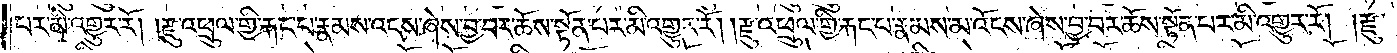པར་མི་འགྱུར་རོ། །རྫུ་འཕྲུལ་གྱི་རྐང་པ་རྣམས་འདས་ཞེས་བྱ་བར་ཆོས་སྟོན་པར་མི་འགྱུར་རོ། །རྫུ་འཕྲུལ་གྱི་རྐང་པ་རྣམས་མ་འོངས་ཞེས་བྱ་བར་ཆོས་སྟོན་པར་མི་འགྱུར་རོ། །རྫུ་
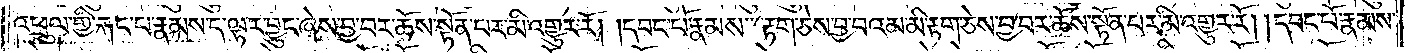འཕྲུལ་གྱི་རྐང་པ་རྣམས་ད་ལྟར་བྱུང་ཞེས་བྱ་བར་ཆོས་སྟོན་པར་མི་འགྱུར་རོ། །དབང་པོ་རྣམས་རྟག་ཅེས་བྱ་བའམ་མི་རྟག་ཅེས་བྱ་བར་ཆོས་སྟོན་པར་མི་འགྱུར་རོ། །དབང་པོ་རྣམས་
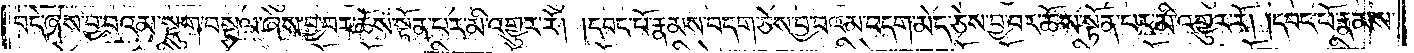བདེ་ཞེས་བྱ་བའམ་སྡུག་བསྔལ་ཞེས་བྱ་བར་ཆོས་སྟོན་པར་མི་འགྱུར་རོ། །དབང་པོ་རྣམས་བདག་ཅེས་བྱ་བའམ་བདག་མེད་ཅེས་བྱ་བར་ཆོས་སྟོན་པར་མི་འགྱུར་རོ། །དབང་པོ་རྣམས་
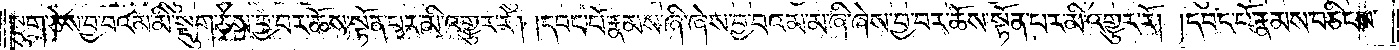སྡུག་ཅེས་བྱ་བའམ་མི་སྡུག་ཅེས་བྱ་བར་ཆོས་སྟོན་པར་མི་འགྱུར་རོ། །དབང་པོ་རྣམས་ཞི་ཞེས་བྱ་བའམ་མ་ཞི་ཞེས་བྱ་བར་ཆོས་སྟོན་པར་མི་འགྱུར་རོ། །དབང་པོ་རྣམས་བཅིངས་
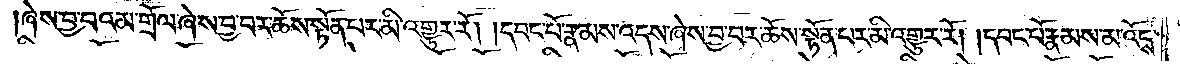ཞེས་བྱ་བའམ་གྲོལ་ཞེས་བྱ་བར་ཆོས་སྟོན་པར་མི་འགྱུར་རོ། །དབང་པོ་རྣམས་འདས་ཞེས་བྱ་བར་ཆོས་སྟོན་པར་མི་འགྱུར་རོ། །དབང་པོ་རྣམས་མ་འོངས་
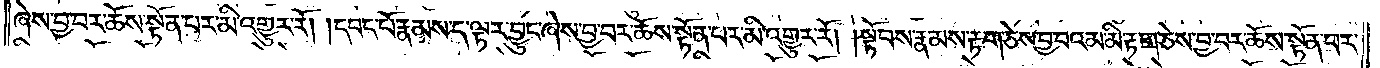ཞེས་བྱ་བར་ཆོས་སྟོན་པར་མི་འགྱུར་རོ། །དབང་པོ་རྣམས་ད་ལྟར་བྱུང་ཞེས་བྱ་བར་ཆོས་སྟོན་པར་མི་འགྱུར་རོ། །སྟོབས་རྣམས་རྟག་ཅེས་བྱ་བའམ་མི་རྟག་ཅེས་བྱ་བར་ཆོས་སྟོན་པར་
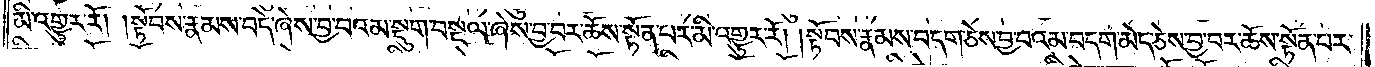མི་འགྱུར་རོ། །སྟོབས་རྣམས་བདེ་ཞེས་བྱ་བའམ་སྡུག་བསྔལ་ཞེས་བྱ་བར་ཆོས་སྟོན་པར་མི་འགྱུར་རོ། །སྟོབས་རྣམས་བདག་ཅེས་བྱ་བའམ་བདག་མེད་ཅེས་བྱ་བར་ཆོས་སྟོན་པར་
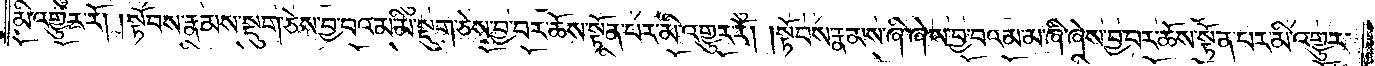མི་འགྱུར་རོ། །སྟོབས་རྣམས་སྡུག་ཅེས་བྱ་བའམ་མི་སྡུག་ཅེས་བྱ་བར་ཆོས་སྟོན་པར་མི་འགྱུར་རོ། །སྟོབས་རྣམས་ཞི་ཞེས་བྱ་བའམ་མ་ཞི་ཞེས་བྱ་བར་ཆོས་སྟོན་པར་མི་འགྱུར་
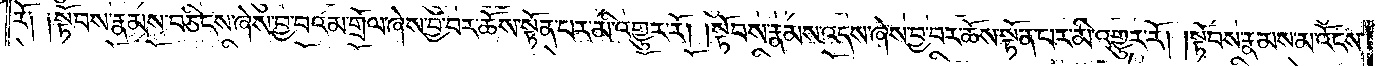རོ༑ ༑སྟོབས་རྣམས་བཅིངས་ཞེས་བྱ་བའམ་གྲོལ་ཞེས་བྱ་བར་ཆོས་སྟོན་པར་མི་འགྱུར་རོ། །སྟོབས་རྣམས་འདས་ཞེས་བྱ་བར་ཆོས་སྟོན་པར་མི་འགྱུར་རོ། །སྟོབས་རྣམས་མ་འོངས་
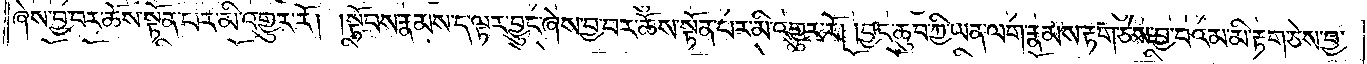ཞེས་བྱ་བར་ཆོས་སྟོན་པར་མི་འགྱུར་རོ། །སྟོབས་རྣམས་ད་ལྟར་བྱུང་ཞེས་བྱ་བར་ཆོས་སྟོན་པར་མི་འགྱུར་རོ། །བྱང་ཆུབ་ཀྱི་ཡན་ལག་རྣམས་རྟག་ཅེས་བྱ་བའམ་མི་རྟག་ཅེས་བྱ་
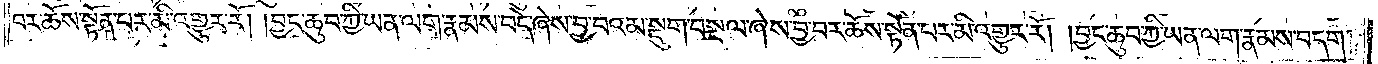བར་ཆོས་སྟོན་པར་མི་འགྱུར་རོ། །བྱང་ཆུབ་ཀྱི་ཡན་ལག་རྣམས་བདེ་ཞེས་བྱ་བའམ་སྡུག་བསྔལ་ཞེས་བྱ་བར་ཆོས་སྟོན་པར་མི་འགྱུར་རོ། །བྱང་ཆུབ་ཀྱི་ཡན་ལག་རྣམས་བདག་
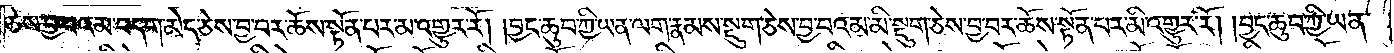ཅེས་བྱ་བའམ་བདག་མེད་ཅེས་བྱ་བར་ཆོས་སྟོན་པར་མི་འགྱུར་རོ། །བྱང་ཆུབ་ཀྱི་ཡན་ལག་རྣམས་སྡུག་ཅེས་བྱ་བའམ་མི་སྡུག་ཅེས་བྱ་བར་ཆོས་སྟོན་པར་མི་འགྱུར་རོ། །བྱང་ཆུབ་ཀྱི་ཡན་
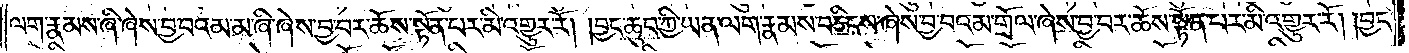ལག་རྣམས་ཞི་ཞེས་བྱ་བའམ་མ་ཞི་ཞེས་བྱ་བར་ཆོས་སྟོན་པར་མི་འགྱུར་རོ། །བྱང་ཆུབ་ཀྱི་ཡན་ལག་རྣམས་བཅིངས་ཞེས་བྱ་བའམ་གྲོལ་ཞེས་བྱ་བར་ཆོས་སྟོན་པར་མི་འགྱུར་རོ། །བྱང་
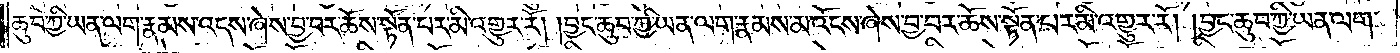ཆུབ་ཀྱི་ཡན་ལག་རྣམས་འདས་ཞེས་བྱ་བར་ཆོས་སྟོན་པར་མི་འགྱུར་རོ། །བྱང་ཆུབ་ཀྱི་ཡན་ལག་རྣམས་མ་འོངས་ཞེས་བྱ་བར་ཆོས་སྟོན་པར་མི་འགྱུར་རོ། །བྱང་ཆུབ་ཀྱི་ཡན་ལག་
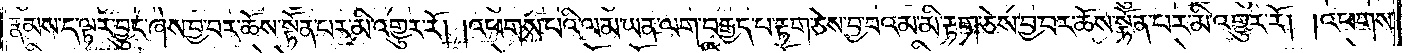རྣམས་ད་ལྟར་བྱུང་ཞེས་བྱ་བར་ཆོས་སྟོན་པར་མི་འགྱུར་རོ། །འཕགས་པའི་ལམ་ཡན་ལག་བརྒྱད་པ་རྟག་ཅེས་བྱ་བའམ་མི་རྟག་ཅེས་བྱ་བར་ཆོས་སྟོན་པར་མི་འགྱུར་རོ། །འཕགས་
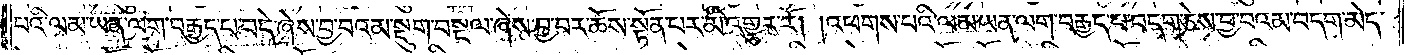པའི་ལམ་ཡན་ལག་བརྒྱད་པ་བདེ་ཞེས་བྱ་བའམ་སྡུག་བསྔལ་ཞེས་བྱ་བར་ཆོས་སྟོན་པར་མི་འགྱུར་རོ། །འཕགས་པའི་ལམ་ཡན་ལག་བརྒྱད་པ་བདག་ཅེས་བྱ་བའམ་བདག་མེད་
